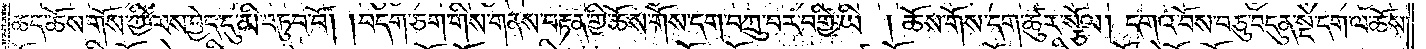ཆད་ཆོས་གོས་ཀྱི་ལས་བྱེད་དུ་མི་བཏུབ་བོ། །བདག་ཅག་གིས་གནས་བརྟན་གྱི་ཆོས་གོས་དག་བཀྲུ་བར་བགྱི་ཡི། ཆོས་གོས་དག་ཚུར་སྩོལ། དགའ་བོས་བཅུ་བདུན་སྡེ་དག་ལ་ཆོས་
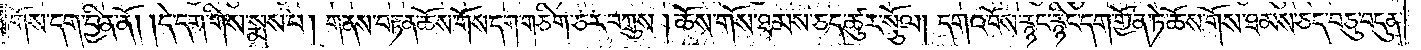གོས་དག་བྱིན་ནོ། །དེ་དག་གིས་སྨྲས་པ། གནས་བརྟན་ཆོས་གོས་དག་གཅིག་ཅར་བཀྲུས་།ཆོས་གོས་ཐམས་ཅད་ཚུར་སྩོལ། དགའ་བོས་རྙང་རྙིང་དག་གྱོན་ཏེ་ཆོས་གོས་ཐམས་ཅད་བཅུ་བདུན་
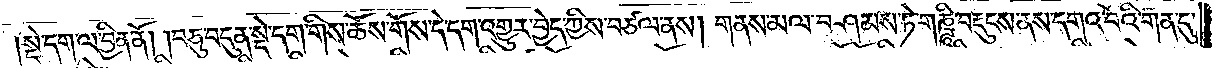སྡེ་དག་ལ་བྱིན་ནོ། །བཅུ་བདུན་སྡེ་དག་གིས་ཆོས་གོས་དེ་དག་འགྱུར་བྱེད་ཀྱིས་བཙལ་ནས། གནས་མལ་བཤམས་ཏེ་གཎྜཱི་བརྡུངས་ནས་དགའ་བོའི་གན་དུ་
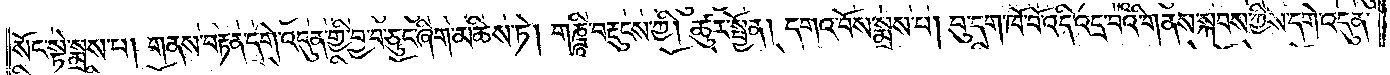སོང་སྟེ་སྨྲས་པ། གནས་བརྟན་དགེ་འདུན་གྱི་བྱ་བ་ཅུང་ཞིག་མཆིས་ཏེ། གཎྜཱི་བརྡུངས་ཀྱི། ཚུར་སྤྱོན། དགའ་བོས་སྨྲས་པ། བུ་དག་ཁོ་བོ་འདི་འདྲ་བའི་གནས་སྐབས་ཀྱིས་དགེ་འདུན་
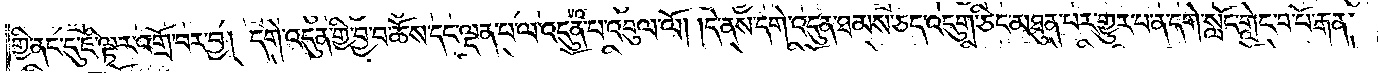གྱི་ནང་དུ་ཇི་ལྟར་འགྲོ་བར་བྱ། དགེ་འདུན་གྱི་བྱ་བ་ཆོས་དང་ལྡན་པ་ལ་འདུན་པ་འབུལ་ལོ། །དེ་ནས་དགེ་འདུན་ཐམས་ཅད་འདུག་ཅིང་མཐུན་པར་གྱུར་པ་ན་དགེ་སློང་གླེང་བ་པོ་རྒན་
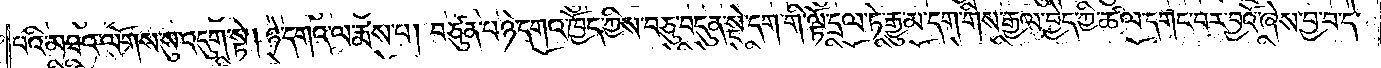པའི་མཐའ་ལོགས་སུ་འདུག་སྟེ། ཉེ་དགའ་ལ་རྨས་པ། བཙུན་པ་ཉེ་དགའ་ཁྱོད་ཀྱིས་བཅུ་བདུན་སྡེ་དག་གི་ལྟོ་དྲལ་ཏེ་རྒྱུ་མ་དག་གིས་རྒྱལ་བྱེད་ཀྱི་ཚལ་དགང་བར་བྱའོ་ཞེས་བྱ་བ་དེ་
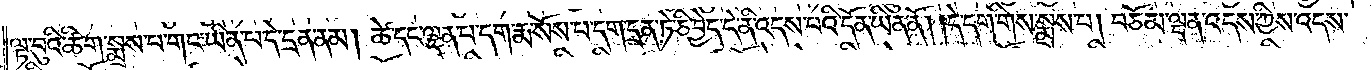ལྟ་བུའི་ཚིག་སྨྲས་པ་གང་ཡིན་པ་དེ་དྲན་ནམ། ཚེ་དང་ལྡན་པ་དག་རྨ་སོས་པ་དག་དྲན་ཏེ་ཅི་བྱེད་དེ་ནི་འདས་པའི་དོན་ཡིན་ནོ། །དེ་དག་གིས་སྨྲས་པ། བཅོམ་ལྡན་འདས་ཀྱིས་འདས་
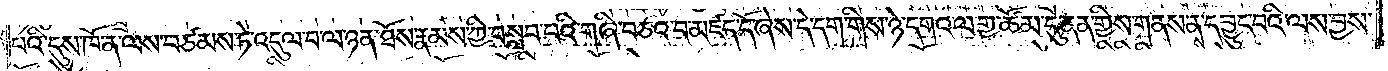པའི་དུས་ཁོ་ན་ལས་བཙམས་ཏེ་འདུལ་བ་ལ་ཉན་ཐོས་རྣམས་ཀྱི་བསླབ་པའི་གཞི་བཅའ་བ་མཛད་དོ་ཞེས་དེ་དག་གིས་ཉེ་དགའ་ལ་གྱ་ཚོམ་དུ་ནན་གྱིས་གནས་ནས་དབྱུང་བའི་ལས་བྱས་
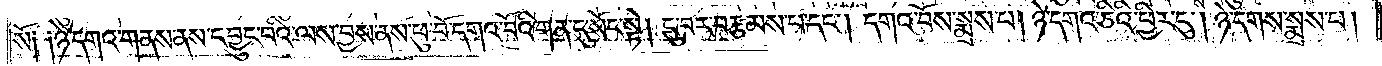སོ༑ ༑ཉེ་དགའ་གནས་ནས་དབྱུང་བའི་ལས་བྱས་ནས་ཕུ་བོ་དགའ་བོའི་གན་དུ་སོང་སྟེ། ངུ་བར་བརྩམས་པ་དང༌། དགའ་བོས་སྨྲས་པ། ཉེ་དགའ་ཅིའི་ཕྱིར་དུ། ཉེ་དགས་སྨྲས་པ།
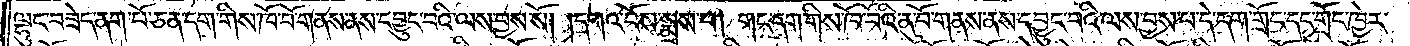ལྷུང་བཟེད་ནག་པོ་ཅན་དག་གིས་ཁོ་བོ་གནས་ནས་དབྱུང་བའི་ལས་བྱས་སོ། །དགའ་བོས་སྨྲས་པ། གང་དག་གིས་ཁོ་བོའི་ནུ་བོ་གནས་ནས་དབྱུང་བའི་ལས་བྱས་པ་དེ་དག་གྲོང་དང་གྲོང་ཁྱེར་
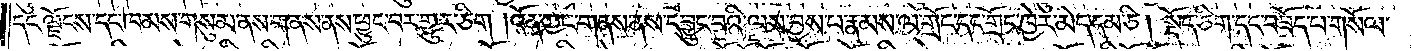དང་ལྗོངས་དང་ཁམས་གསུམ་ནས་གནས་ནས་ཕྱུང་བར་གྱུར་ཅིག །འོན་ཀྱང་གནས་ནས་དབྱུང་བའི་ལས་བྱས་པ་རྣམས་ལ་གྲོང་དང་གྲོང་ཁྱེར་མེད་དམ་ཅི། སྡོད་ཅིག་དང་བཟོད་པ་གསོལ་
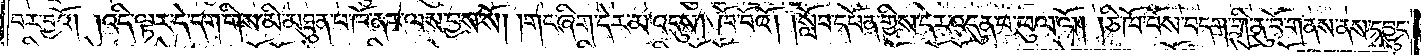བར་བྱའོ། །འདི་ལྟར་དེ་དག་གིས་མི་མཐུན་པ་ཁོ་ནར་ལས་བྱས་སོ། །གང་ཞིག་དེར་མ་འདུས། ཁོ་བོའོ། །སློབ་དཔོན་གྱིས་དེར་འདུན་པ་ཕུལ་ལོ། །ཅི་ཁོ་བོས་བདག་གི་ནུ་བོ་གནས་ནས་དབྱུང་
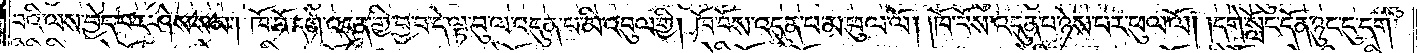བའི་ལས་བྱེད་པར་ཤེས་སམ། ཁོ་བོ་དགེ་འདུན་གྱི་བྱ་བ་དེ་ལྟ་བུ་ལ་འདུན་པ་མི་འབུལ་གྱི། ཁོ་བོས་འདུན་པ་མ་ཕུལ་ལོ། །ཁོ་བོས་འདུན་པ་ཉེས་པར་ཕུལ་ལོ། །དགེ་སློང་དོན་ཉུང་ངུ་དག་
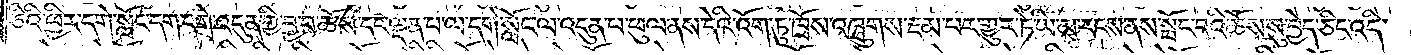ཅིའི་ཕྱིར་དགེ་སློང་དག་དགེ་འདུན་གྱི་བྱ་བ་ཆོས་དང་ལྡན་པ་ལ་དགེ་སློང་ལ་འདུན་པ་ཕུལ་ནས་དེའི་འོག་ཏུ་ཁྲོས་འཁྲུགས་རྔམ་པར་གྱུར་ཏེ་ཡི་མ་རངས་ནས་སྤོང་བའི་ཆོས་སུ་བྱེད་ཅིང་འདི་
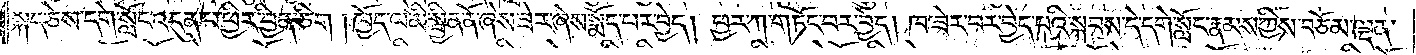སྐད་ཅེས་དགེ་སློང་འདུན་པ་ཕྱིར་བྱིན་ཅིག །ཁྱོད་ལ་མི་སྦྱིན་ནོ་ཞེས་ཟེར་ཞེས་སྨོད་པར་བྱེད། ཕྱར་ཀ་གཏོང་བར་བྱེད། ཁ་ཟེར་བར་བྱེད་པའི་སྐབས་དེ་དགེ་སློང་རྣམས་ཀྱིས་བཅོམ་ལྡན་
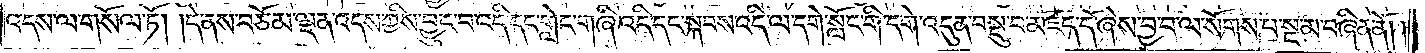འདས་ལ་གསོལ་ཏོ། །དེ་ནས་བཅོམ་ལྡན་འདས་ཀྱིས་བྱུང་བ་འདི་དང་གླེང་གཞི་འདི་དང་སྐབས་འདི་ལ་དགེ་སློང་གི་དགེ་འདུན་བསྡུ་བ་མཛད་དོ་ཞེས་བྱ་བ་ལ་སོགས་པ་སྔ་མ་བཞིན་ནོ། །
